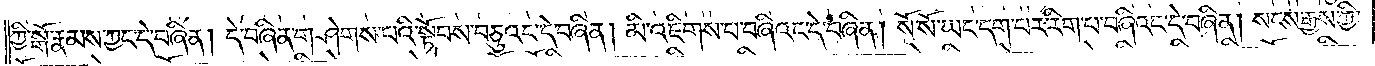ཀྱི་སྒོ་རྣམས་ཀྱང་དེ་བཞིན། དེ་བཞིན་གཤེགས་པའི་སྟོབས་བཅུའང་དེ་བཞིན། མི་འཇིགས་པ་བཞིའང་དེ་བཞིན། སོ་སོ་ཡང་དག་པར་རིག་པ་བཞིའང་དེ་བཞིན། སངས་རྒྱས་ཀྱི་
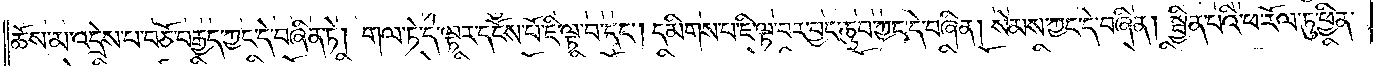ཆོས་མ་འདྲེས་པ་བཅོ་བརྒྱད་ཀྱང་དེ་བཞིན་ཏེ། གལ་ཏེ་དེ་ལྟར་དངོས་པོ་ཇི་ལྟ་བ་དང༌། དམིགས་པ་ཇི་ལྟ་བར་བྱང་ཆུབ་ཀྱང་དེ་བཞིན། སེམས་ཀྱང་དེ་བཞིན། སྦྱིན་པའི་ཕ་རོལ་ཏུ་ཕྱིན་
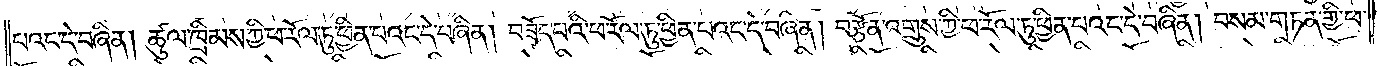པའང་དེ་བཞིན། ཚུལ་ཁྲིམས་ཀྱི་ཕ་རོལ་ཏུ་ཕྱིན་པའང་དེ་བཞིན། བཟོད་པའི་ཕ་རོལ་ཏུ་ཕྱིན་པའང་དེ་བཞིན། བརྩོན་འགྲུས་ཀྱི་ཕ་རོལ་ཏུ་ཕྱིན་པའང་དེ་བཞིན། བསམ་གཏན་གྱི་ཕ་
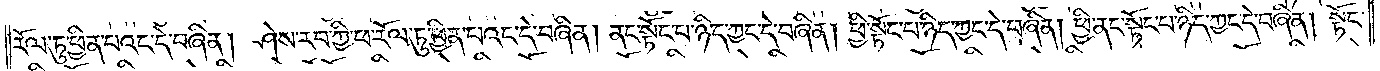རོལ་ཏུ་ཕྱིན་པའང་དེ་བཞིན། ཤེས་རབ་ཀྱི་ཕ་རོལ་ཏུ་ཕྱིན་པའང་དེ་བཞིན། ནང་སྟོང་པ་ཉིད་ཀྱང་དེ་བཞིན། ཕྱི་སྟོང་པ་ཉིད་ཀྱང་དེ་བཞིན། ཕྱི་ནང་སྟོང་བ་ཉིད་ཀྱང་དེ་བཞིན། སྟོང་
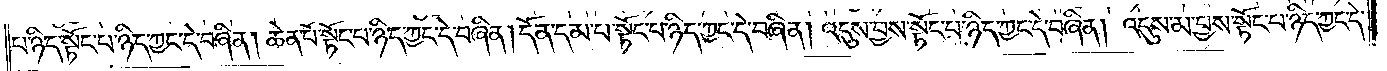པ་ཉིད་སྟོང་པ་ཉིད་ཀྱང་དེ་བཞིན། ཆེན་པོ་སྟོང་པ་ཉིད་ཀྱང་དེ་བཞིན། དོན་དམ་པ་སྟོང་པ་ཉིད་ཀྱང་དེ་བཞིན། འདུས་བྱས་སྟོང་པ་ཉིད་ཀྱང་དེ་བཞིན། འདུས་མ་བྱས་སྟོང་པ་ཉིད་ཀྱང་དེ་
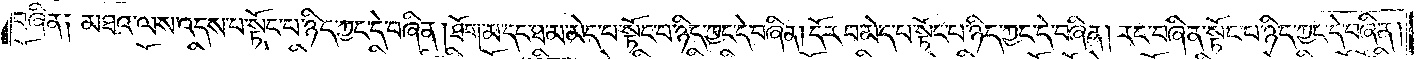བཞིན༑ མཐའ་ལས་འདས་པ་སྟོང་པ་ཉིད་ཀྱང་དེ་བཞིན། ཐོག་མ་དང་ཐམ་མེད་པ་སྟོང་པ་ཉིད་ཀྱང་དེ་བཞིན། དོར་བ་མེད་པ་སྟོང་པ་ཉིད་ཀྱང་དེ་བཞིན། རང་བཞིན་སྟོང་པ་ཉིད་ཀྱང་དེ་བཞིན།
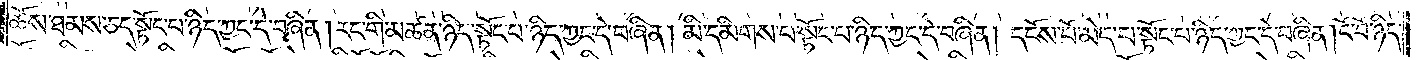ཆོས་ཐམས་ཅད་སྟོང་པ་ཉིད་ཀྱང་དེ་བཞིན། རང་གི་མཚན་ཉིད་སྟོང་པ་ཉིད་ཀྱང་དེ་བཞིན། མི་དམིགས་པ་སྟོང་པ་ཉིད་ཀྱང་དེ་བཞིན། དངོས་པོ་མེད་པ་སྟོང་པ་ཉིད་ཀྱང་དེ་བཞིན། ངོ་བོ་ཉིད་
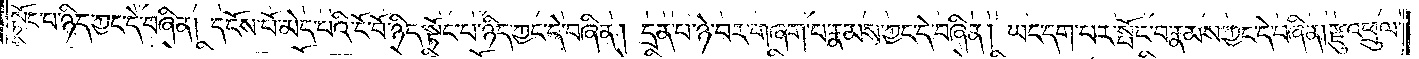སྟོང་པ་ཉིད་ཀྱང་དེ་བཞིན། དངོས་པོ་མེད་པའི་ངོ་བོ་ཉིད་སྟོང་པ་ཉིད་ཀྱང་དེ་བཞིན། དྲན་པ་ཉེ་བར་གཞག་པ་རྣམས་ཀྱང་དེ་བཞིན། ཡང་དག་པར་སྤོང་བ་རྣམས་ཀྱང་དེ་བཞིན། རྫུ་འཕྲུལ་
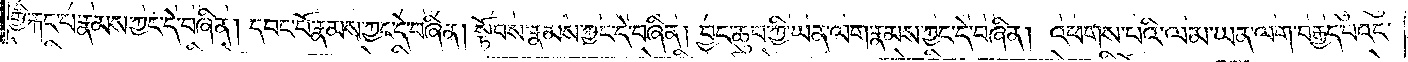གྱི་རྐང་པ་རྣམས་ཀྱང་དེ་བཞིན། དབང་པོ་རྣམས་ཀྱང་དེ་བཞིན། སྟོབས་རྣམས་ཀྱང་དེ་བཞིན། བྱང་ཆུབ་ཀྱི་ཡན་ལག་རྣམས་ཀྱང་དེ་བཞིན། འཕགས་པའི་ལམ་ཡན་ལག་བརྒྱད་པའང་
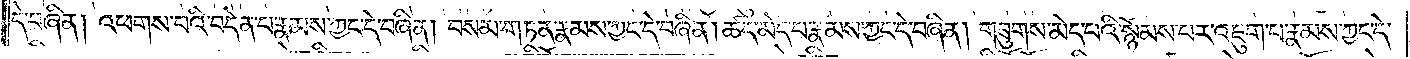དེ་བཞིན། འཕགས་པའི་བདེན་པ་རྣམས་ཀྱང་དེ་བཞིན། བསམ་གཏན་རྣམས་ཀྱང་དེ་བཞིན། ཚད་མེད་པ་རྣམས་ཀྱང་དེ་བཞིན། གཟུགས་མེད་པའི་སྙོམས་པར་འཇུག་པ་རྣམས་ཀྱང་དེ་
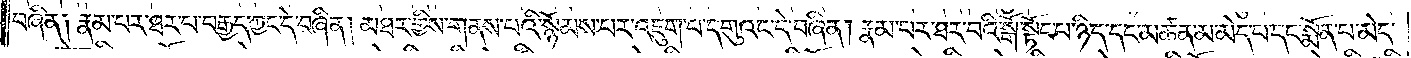བཞིན༑ རྣམ་པར་ཐར་པ་བརྒྱད་ཀྱང་དེ་བཞིན། མཐར་གྱིས་གནས་པའི་སྙོམས་པར་འཇུག་པ་དགུའང་དེ་བཞིན། རྣམ་པར་ཐར་པའི་སྒོ་སྟོང་པ་ཉིད་དང་མཚན་མ་མེད་པ་དང་སྨོན་པ་མེད་
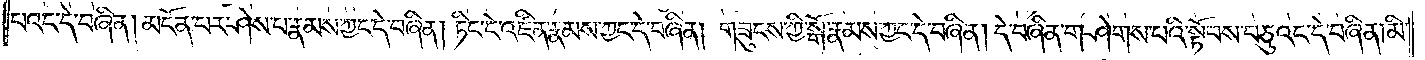པའང་དེ་བཞིན། མངོན་པར་ཤེས་པ་རྣམས་ཀྱང་དེ་བཞིན། ཏིང་ངེ་འཛིན་རྣམས་ཀྱང་དེ་བཞིན། གཟུངས་ཀྱི་སྒོ་རྣམས་ཀྱང་དེ་བཞིན། དེ་བཞིན་གཤེགས་པའི་སྟོབས་བཅུའང་དེ་བཞིན། མི་
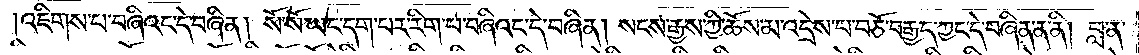འཇིགས་པ་བཞིའང་དེ་བཞིན། སོ་སོ་ཡང་དག་པར་རིག་པ་བཞིའང་དེ་བཞིན། སངས་རྒྱས་ཀྱི་ཆོས་མ་འདྲེས་པ་བཅོ་བརྒྱད་ཀྱང་དེ་བཞིན་ན་ནི། བླ་ན་
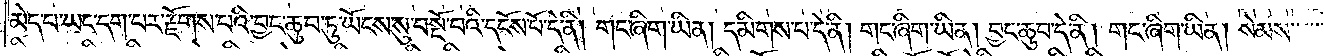མེད་པ་ཡང་དག་པར་རྫོགས་པའི་བྱང་ཆུབ་ཏུ་ཡོངས་སུ་བསྔོ་བའི་དངོས་པོ་དེ་ནི། གང་ཞིག་ཡིན། དམིགས་པ་དེ་ནི། གང་ཞིག་ཡིན། བྱང་ཆུབ་དེ་ནི། གང་ཞིག་ཡིན། སེམས་
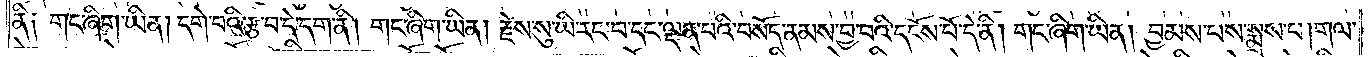ནི༑ གང་ཞིག་ཡིན། དགེ་བའི་རྩ་བ་དེ་དག་ནི། གང་ཞིག་ཡིན། རྗེས་སུ་ཡི་རང་བ་དང་ལྡན་པའི་བསོད་ནམས་བྱ་བའི་དངོས་པོ་དེ་ནི། གང་ཞིག་ཡིན། བྱམས་པས་སྨྲས་པ། གལ་
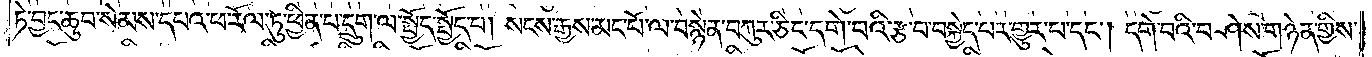ཏེ་བྱང་ཆུབ་སེམས་དཔའ་ཕ་རོལ་ཏུ་ཕྱིན་པ་དྲུག་ལ་སྤྱོད་སྤྱོད་པ། སངས་རྒྱས་མང་པོ་ལ་བསྙེན་བཀུར་ཅིང་དགེ་བའི་རྩ་བ་བསྐྱེད་པར་གྱུར་པ་དང༌། དགེ་བའི་བཤེས་གཉེན་གྱིས་
